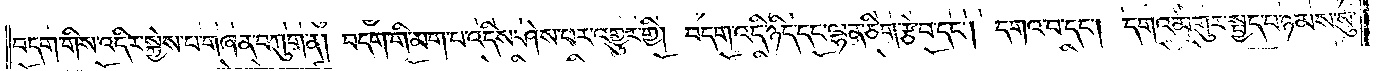བདག་གིས་འདིར་སྐྱེས་པ་གཞན་བཀུག་ན། བདག་གི་མག་པ་འདིས་ཤེས་པར་འགྱུར་གྱི། བདག་འདི་ཉིད་དང་ལྷན་ཅིག་རྩེ་བ་དང༌། དགའ་བ་དང༌། དགའ་མགུར་སྤྱད་བ་ཉམས་སུ་
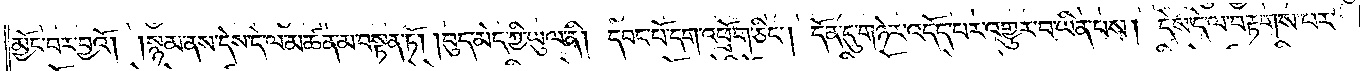མྱོང་བར་བྱའོ། །སྙམ་ནས་དེས་དེ་ལ་མཚན་མ་བསྟན་ཏོ། །བུད་མེད་ཀྱི་ཡུལ་ནི། དབང་པོ་དག་འཕྲོག་ཅིང༌། དོན་དུ་གཉེར་འདོད་པར་འགྱུར་བ་ཡིན་པས། དེས་དེ་ལ་བརྟགས་པར་
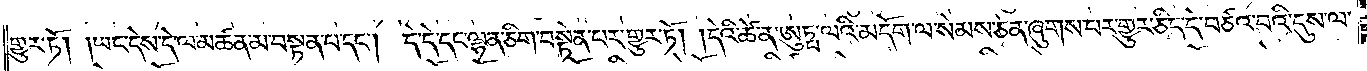གྱུར་ཏོ། །ཡང་དེས་དེ་ལ་མཚན་མ་བསྟན་པ་དང༌། དེ་དེ་དང་ལྷན་ཅིག་བསྟེན་པར་གྱུར་ཏོ། །དེའི་ཚེ་ན་ཨུཏྤ་ལའི་མདོག་ལ་སེམས་ཅན་ཞུགས་པར་གྱུར་ཅིང་དེ་བཙའ་བའི་དུས་ལ་
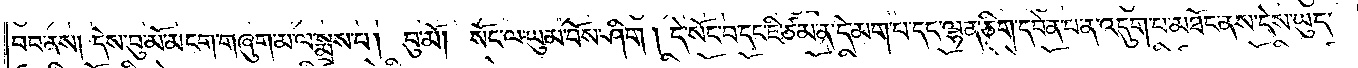བབ་ནས། དེས་བུ་མོ་མངག་གཞུག་མ་ལ་སྨྲས་པ། བུ་མོ། །སོང་ལ་ཡུམ་བོས་ཤིག །དེ་སོང་བ་དང་ཇི་ཙམ་ན་དེ་མག་པ་དང་ལྷན་ཅིག་དབེན་པ་ན་འདུག་པ་མཐོང་ནས་དེས་ཡུད་
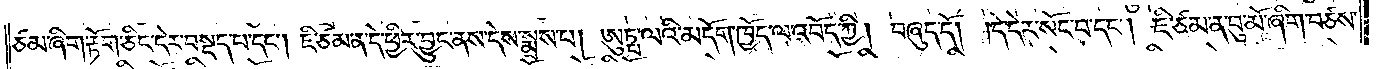ཙམ་ཞིག་རྟོག་ཅིང་དེར་བསྡད་པ་དང༌། ཇི་ཙམ་ན་དེ་ཕྱིར་བྱུང་ནས་དེས་སྨྲས་པ། ཨུཏྤ་ལའི་མདོག་ཁྱོད་ལ་འབོད་ཀྱི། བཞུད་དོ། །དེ་དེར་སོང་བ་དང༌། ཇི་ཙམ་ན་བུ་མོ་ཞིག་བཙས་
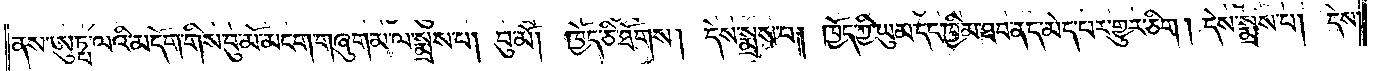ནས་ཨུཏྤ་ལའི་མདོག་གིས་བུ་མོ་མངག་གཞུག་མ་ལ་སྨྲས་པ། བུ་མོ། ཁྱོད་ཅི་ཐོགས། དེས་སྨྲས་པ། ཁྱོད་ཀྱི་ཡུམ་དང་ཁྱིམ་ཐབ་ནད་མེད་པར་གྱུར་ཅིག །དེས་སྨྲས་པ། དེས་
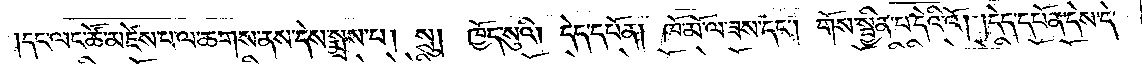།དང་ལང་ཚོ་མཛེས་པ་ལ་ཆགས་ནས་དེས་སྨྲས་པ། སྲུ། ཁྱོད་སུའི། དེད་དཔོན། ཁོ་མོ་ལ་ཟས་དང༌། གོས་སྦྱིན་པ་དེའི་འོ། །དེད་དཔོན་དེས་དེ་
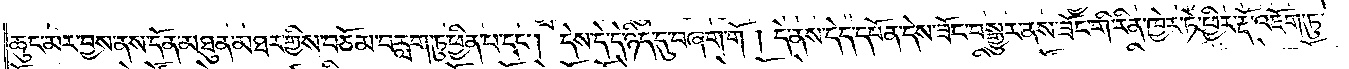ཆུང་མར་བྱས་ནས་དོན་མཐུན་མཐར་གྱིས་བཅོམ་བརླག་ཏུ་ཕྱིན་པ་དང༌། དེས་དེ་དེ་ཉིད་དུ་བཞག་གོ །དེ་ནས་དེད་དཔོན་དེས་ཟོང་བསྒྱུར་ནས་ཟོང་གི་རིན་ཁྱེར་ཏེ་ཕྱིར་རྡོ་འཇོག་ཏུ་
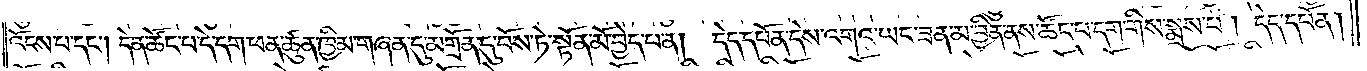འོངས་པ་དང༌། དེ་ན་ཚོང་པ་དེ་དག་ཕན་ཚུན་ཁྱིམ་གཞན་དུ་མགྲོན་དུ་བོས་ཏེ་སྟོན་མོ་བྱེད་པ་ན། དེད་དཔོན་དེས་འགའ་ཡང་ཟན་མ་བྱིན་ནས་ཚོང་པ་དག་གིས་སྨྲས་པ། དེད་དཔོན།
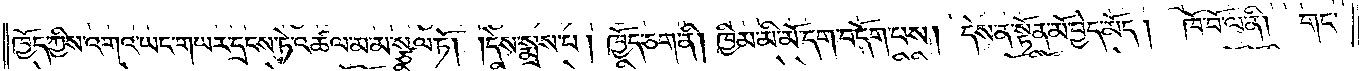ཁྱོད་ཀྱིས་འགའ་ཡང་གཡར་དྲངས་ཏེ་འཚལ་མ་མ་སྩལ་ཏོ། །དེས་སྨྲས་པ། ཁྱོད་ཅག་ནི། ཁྱིམ་མི་མོ་དག་བདོག་པས། དེས་ན་སྟོན་མོ་བྱེད་མོད། ཁོ་བོ་ལ་ནི། གང་
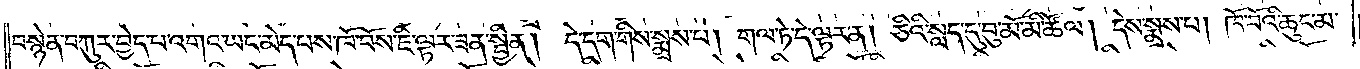བསྙེན་བཀུར་བྱེད་པ་འགའ་ཡང་མེད་པས་ཁོ་བོས་ཇི་ལྟར་ཟན་སྦྱིན། དེ་དག་གིས་སྨྲས་པ། གལ་ཏེ་དེ་ལྟར་ན། ཅིའི་སླད་དུ་བུ་མོ་མི་ཚོལ། དེས་སྨྲས་པ། ཁོ་བོའི་ཆུང་མ་
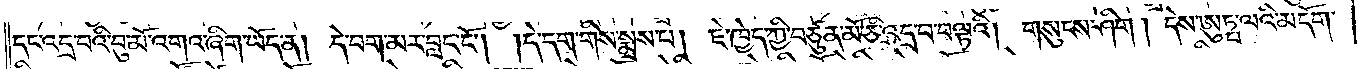དང་འདྲ་བའི་བུ་མོ་འགའ་ཞིག་ཡོད་ན། དེ་བག་མར་བླང་ངོ༌། །དེ་དག་གིས་སྨྲས་པ། ཇེ་ཁྱེད་ཀྱི་བཙུན་མོ་ཅི་འདྲ་བ་བལྟའི། གསུངས་ཤིག །དེས་ཨུཏྤ་ལའི་མདོག་
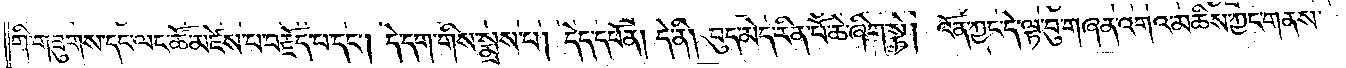གི་གཟུགས་དང་ལང་ཚོ་མཛེས་པ་བརྗོད་པ་དང༌། དེ་དག་གིས་སྨྲས་པ། དེད་དཔོན། དེ་ནི། བུད་མེད་རིན་པོ་ཆེ་ཞིག་སྟེ། འོན་ཀྱང་དེ་ལྟ་བུ་གཞན་འགའ་མཆིས་ཀྱང་གནས་
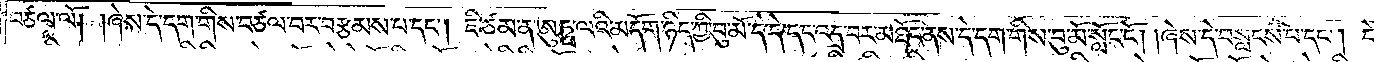བཙལ་ལོ། །ཞེས་དེ་དག་གིས་བཙལ་བར་བརྩམས་པ་དང༌། ཇི་ཙམ་ན་ཨུཏྤ་ལའི་མདོག་ཉིད་ཀྱི་བུ་མོ་དེ་དེ་དང་འདྲ་བར་མཐོང་ནས་དེ་དག་གིས་བུ་མོ་སློང་ངོ༌། །ཞེས་དེ་བསླངས་པ་དང༌། དེ་
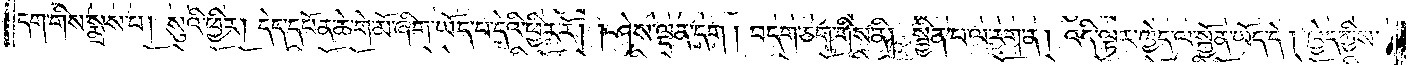དག་གིས་སྨྲས་པ། སུའི་ཕྱིར། དེད་དཔོན་ཆེ་གེ་མོ་ཞིག་ཡོད་པ་དེའི་ཕྱིར་རོ། །ཤེས་ལྡན་དག །བདག་ཅག་གིས་ནི། སྦྱིན་པ་ལ་རག་ན། འདི་ལྟར་ཁྱེད་ལ་སྐྱོན་ཡོད་དེ། ཁྱེད་ཀྱིས་
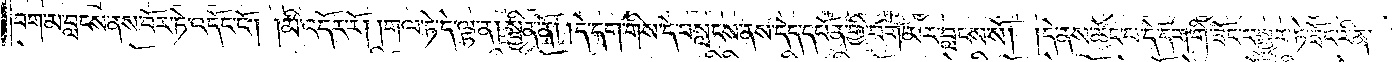བག་མ་བླངས་ནས་བོར་ཏེ་འདོང་ངོ༌། །མི་འདོར་རོ། །གལ་ཏེ་དེ་ལྟ་ན། སྦྱིན་ནོ། །དེ་དག་གིས་དེ་བསླངས་ནས་དེད་དཔོན་གྱི་བག་མར་བླངས་སོ། །དེ་ནས་ཚོང་པ་དེ་དག་གི་ཟོང་བསྒྱུར་ཏེ་ཟོང་རིན་
